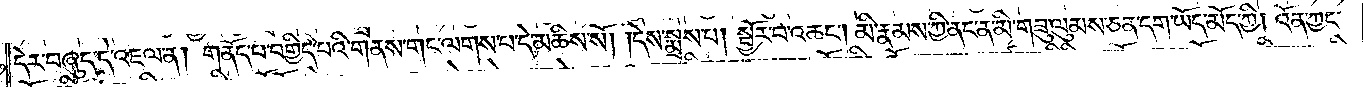དེར་བཞུད་དེ་འཇལ་ན། གནོད་པ་བགྱིད་པའི་གནས་གང་ལགས་པ་དེ་མཆིས་སོ། །དེས་སྨྲས་པ། སྦྱོར་བ་འཆང༌། མི་རྣམས་ཀྱི་ནང་ན་མི་གཟུ་ལུམས་ཅན་དག་ཡོད་མོད་ཀྱི། འོན་ཀྱང་
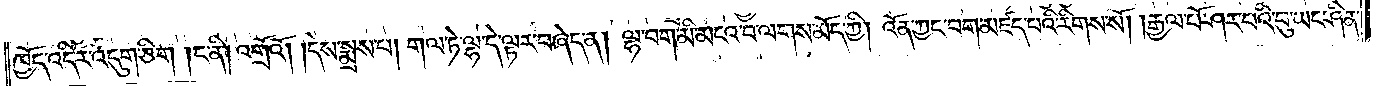ཁྱོད་འདིར་འདུག་ཅིག །ང་ནི། འགྲོའོ། །དེས་སྨྲས་པ། གལ་ཏེ་ལྷ་དེ་ལྟར་བཞེད་ན། ལྷ་བག་མི་མངའ་བ་ལགས་མོད་ཀྱི། འོན་ཀྱང་བག་མཛད་པའི་རིགས་སོ། །རྒྱལ་པོ་ཤར་པའི་བུ་ཡང་ཤིན་
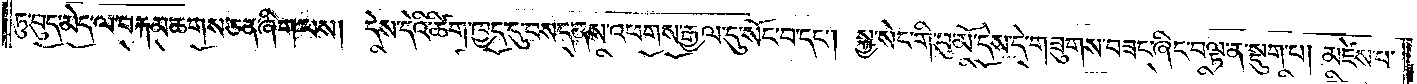ཏུ་བུད་མེད་ལ་བརྐམ་ཆགས་ཅན་ཞིག་པས། དེས་དེའི་ཚིག་ཁྱད་དུ་བསད་ནས་འཕགས་རྒྱལ་དུ་སོང་བ་དང༌། སྐྱ་སེང་གི་བུ་མོ་དེས་དེ་གཟུགས་བཟང་ཞིང་བལྟ་ན་སྡུག་པ། མཛེས་པ་
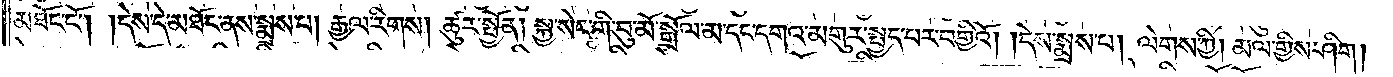མཐོང་ངོ༌། །དེས་དེ་མཐོང་ནས་སྨྲས་པ། རྒྱལ་རིགས། ཚུར་སྤྱོན། སྐྱ་སེང་གི་བུ་མོ་སྒྲོལ་མ་དང་དགའ་མགུར་སྤྱད་པར་བགྱིའོ། །དེས་སྨྲས་པ། ལེགས་ཀྱི། མལ་གྱིས་ཤིག །
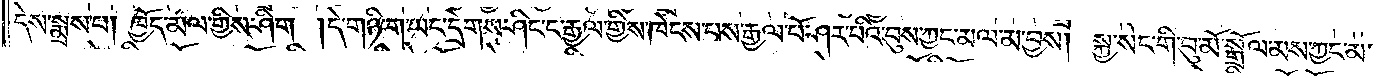དེས་སྨྲས་པ། ཁྱོད་མལ་གྱིས་ཤིག །དེ་གཉི་ག་ཡང་དྲེགས་ཤིང་ང་རྒྱལ་གྱིས་ཁེངས་པས་རྒྱལ་པོ་ཤར་པའི་བུས་ཀྱང་མལ་མ་བྱས། སྐྱ་སེང་གི་བུ་མོ་སྒྲོལ་མས་ཀྱང་མ་
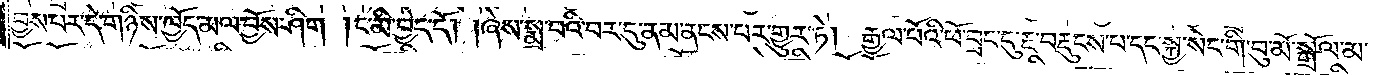བྱས་བར་དེ་གཉིས་ཁྱོད་མལ་བྱོས་ཤིག །ང་མི་བྱེད་དོ། །ཞེས་སྨྲ་བའི་བར་དུ་ནམ་ནངས་པར་གྱུར་ཏེ། རྒྱལ་པོའི་ཕོ་བྲང་དུ་རྔ་བརྡུངས་པ་དང་སྐྱ་སེང་གི་བུ་མོ་སྒྲོལ་མ་
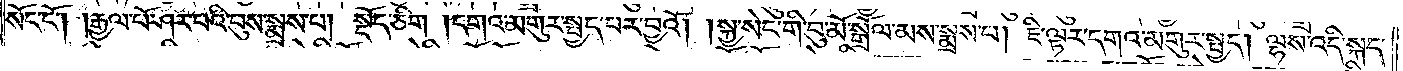སོང་ངོ༌། །རྒྱལ་པོ་ཤར་པའི་བུས་སྨྲས་པ། སྡོད་ཅིག །དགའ་མགུར་སྤྱད་པར་བྱའོ། །སྐྱ་སེང་གི་བུ་མོ་སྒྲོལ་མས་སྨྲས་པ། ཇི་ལྟར་དགའ་མགུར་སྤྱད། ལྷས་འདི་སྐད་
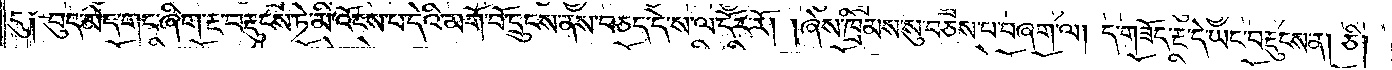དུ༑ བུད་མེད་གང་ཞིག་རྔ་བརྡུངས་ཏེ་མི་འོངས་པ་དེའི་མགོ་བོ་དྲུངས་ནས་བཅད་དེ་ས་ལ་དོར་རོ། །ཞེས་ཁྲིམས་སུ་བཅས་པ་བཞག་ལ། ད་གཟོད་རྔ་དེ་ཡང་བརྡུངས་ན། ཅི།
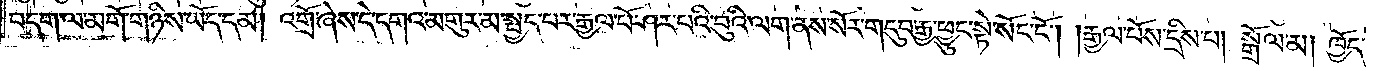བདག་ལ་མགོ་གཉིས་ཡོད་དམ། འགྲོ་ཞེས་དེ་དགའ་མགུར་མ་སྤྱད་པར་རྒྱལ་པོ་ཤར་པའི་བུའི་ལག་ནས་སོར་གདུབ་རྒྱ་ཕྱུང་སྟེ་སོང་ངོ༌། །རྒྱལ་པོས་དྲིས་པ། སྒྲོལ་མ། ཁྱོད་
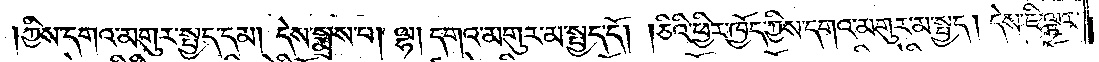ཀྱིས་དགའ་མགུར་སྤྱད་དམ། དེས་སྨྲས་པ། ལྷ། དགའ་མགུར་མ་སྤྱད་དོ། །ཅིའི་ཕྱིར་ཁྱོད་ཀྱིས་དགའ་མགུར་མ་སྤྱད། དེས་ཇི་ལྟར་
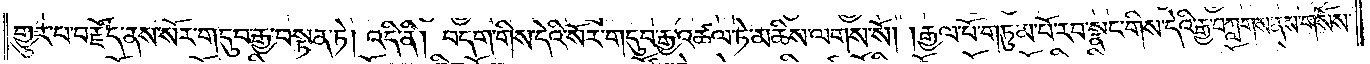གྱུར་པ་བརྗོད་ནས་སོར་གདུབ་རྒྱ་བསྟན་ཏེ། འདི་ནི། བདག་གིས་དེའི་སོར་གདུབ་རྒྱ་འཚལ་ཏེ་མཆིས་ལགས་སོ། །རྒྱལ་པོ་གཏུམ་པོ་རབ་སྣང་གིས་དེའི་རྒྱ་བཀླགས་ནས་གསོས་
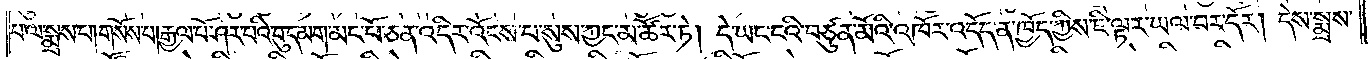པ་ལ་སྨྲས་པ།གསོས་པ།རྒྱལ་པོ་ཤར་པའི་བུ་དམག་མང་པོ་ཅན་འདིར་འོངས་པ་སུས་ཀྱང་མ་ཚོར་ཏེ། དེ་ཡང་ངའི་བཙུན་མོའི་འཁོར་འདོད་ན་ཁྱོད་ཀྱིས་ཇི་ལྟར་ཡལ་བར་དོར། དེས་སྨྲས་
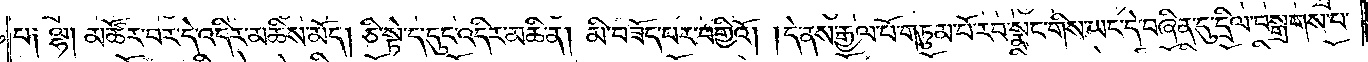པ༑ ལྷ། མ་ཚོར་བར་དེ་འདིར་མཆིས་མོད། ཅི་སྟེ་ད་དུང་འདིར་མཆི་ན། མི་བཟོད་པར་བགྱིའོ། །དེ་ནས་རྒྱལ་པོ་གཏུམ་པོ་རབ་སྣང་གིས་ཡང་དེ་བཞིན་དུ་དྲིལ་བསྒྲགས་པ་
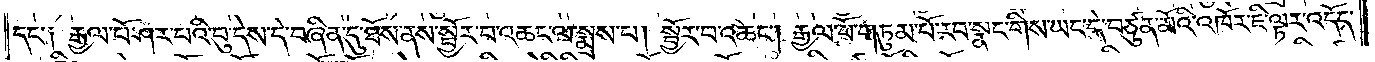དང་༑ རྒྱལ་པོ་ཤར་པའི་བུ་དེས་དེ་བཞིན་དུ་ཐོས་ནས་སྦྱོར་བ་འཆང་ལ་སྨྲས་པ། སྦྱོར་བ་འཆང༌། རྒྱལ་པོ་གཏུམ་པོ་རབ་སྣང་གིས་ཡང་དེ་བཙུན་མོའི་འཁོར་ཇི་ལྟར་འདོད་
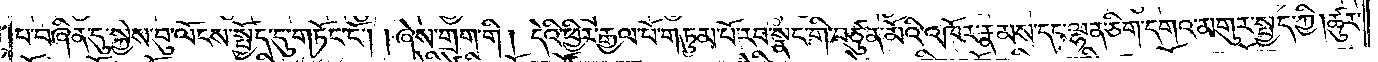པ་བཞིན་དུ་སྐྱེས་བུ་ལོངས་སྤྱོད་དུ་གཏོང་ངོ༌། །ཞེས་གྲག་གི། དེའི་ཕྱིར་རྒྱལ་པོ་གཏུམ་པོ་རབ་སྣང་གི་བཙུན་མོའི་འཁོར་རྣམས་དང་ལྷན་ཅིག་དགའ་མགུར་སྤྱད་ཀྱི། ཚུར་
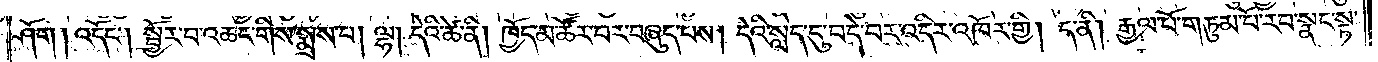ཤོག །འདོང༌། སྦྱོར་བ་འཆང་གིས་སྨྲས་པ། ལྷ། དེའི་ཚེ་ནི། ཁྱོད་མ་ཚོར་བར་བཞུད་པས། དེའི་སླད་དུ་བདེ་བར་འདིར་འཁོར་གྱི། ད་ནི། རྒྱལ་པོ་གཏུམ་པོ་རབ་སྣང་སྟ་
